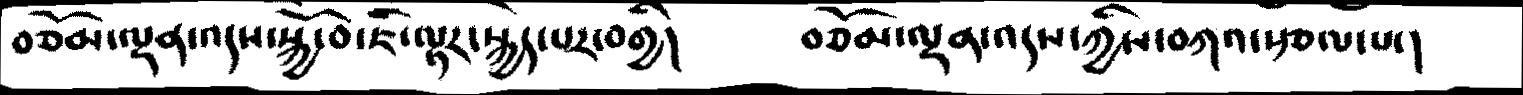བཅོམ་ལྡན་འདས་སྐྱོ་བ་ཇི་ལྟར་སྐྱེད་པར་བགྱི།      བཅོམ་ལྡན་འདས་ཀྱིས་བཀའ་རྩལ་པ་།
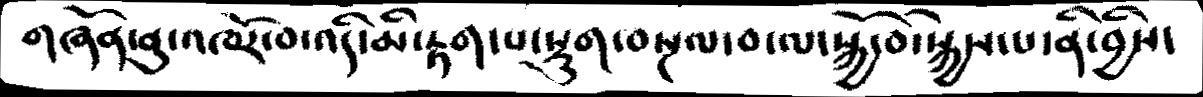གཞོན་ནུ་འཁོར་བ་འདི་མི་རྟག་པ་སྡུག་བསྔལ་བ་ལ་སྐྱོ་བ་སྐྱེས་པ་ནི་བྱིས་
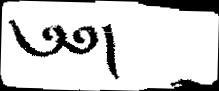༅༅།
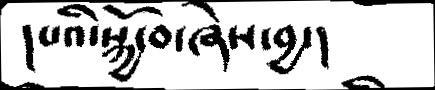།པའི་སྐྱོ་བ་ཞེས་བྱ་།
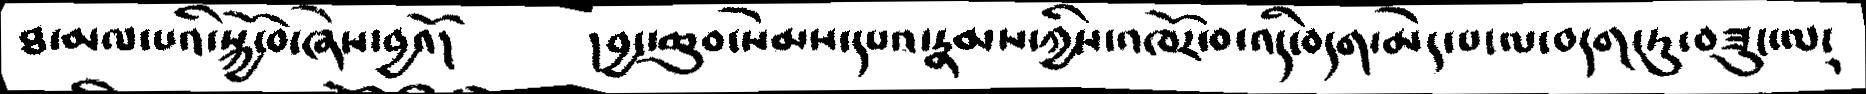ཐ་མལ་པའི་སྐྱོ་བ་ཞེས་བྱའོ།     །བྱང་ཆུབ་སེམས་དཔའ་རྣམས་ཀྱིས་འཁོར་བ་འདི་བདག་མེད་པ་ལ་བདག་ཏུ་བཟུང་ལ༴
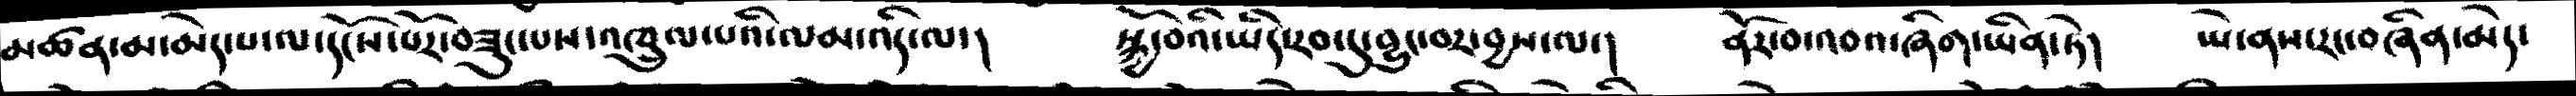མཚན་མ་མེད་པ་ལ་དངོས་པོར་བཟུང་པས་འཁྲུལ་པའི་ལམ་འདི་ལ་།   སྐྱོ་བའི་ཡིད་རབ་དུ་བྱུང་བར་བྱས་ལ་།       ནོར་བ་འབའ་ཞིག་ཡིན་ཏེ།    ཡེ་ནས་རང་བཞིན་མེད་
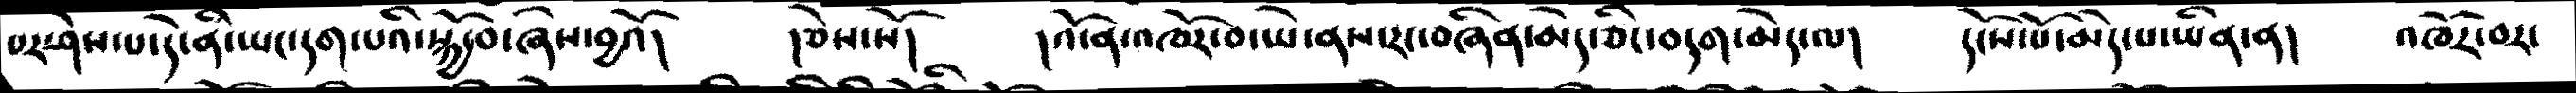པར་ཤེས་པ་དེ་ནི་ཡང་དག་པའི་སྐྱོ་བ་ཞེས་བྱའོ།    །ཅེས་སོ།    །འོ་ན་འཁོར་བ་ཡེ་ནས་རང་བཞིན་མེད་ཅིང་བདག་མེད་ལ།   དངོས་པོ་མེད་པ་ཡིན་ན།     འཁོར་བར་
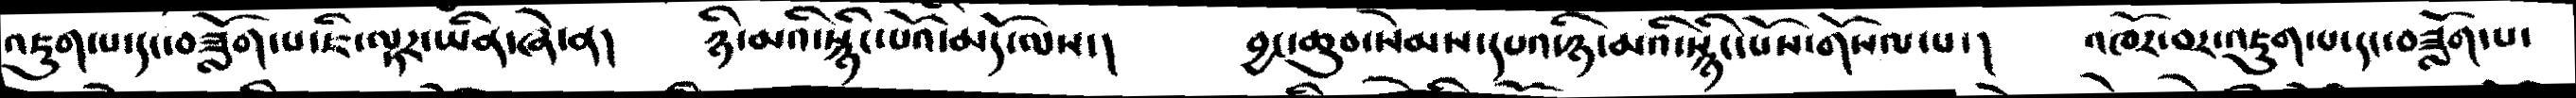འཇུག་པ་དང་བཟློག་པ་ཇི་ལྟར་ཡིན་ཞེ་ན།     ཉི་མའི་སྙིང་པའོི་མདོ་ལས་།   བྱང་ཆུབ་སེམས་དཔའ་ཉི་མའི་སྙིང་པོས་གསོལ་པ་།    འཁོར་བར་འཇུག་པ་དང་བཟློག་པ་
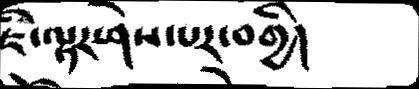ཇི་ལྟར་ཤེས་པར་བགྱི།
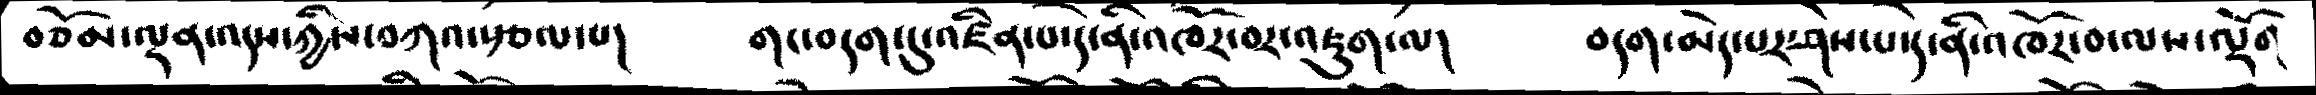བཅོམ་ལྡན་འདས་ཀྱིས་བཀའ་རྩལ་པ།      གང་བདག་དུ་འཛིན་པ་དེ་ནི་འཁོར་བར་འཇུག་ལ།    བདག་མེད་པར་ཤེས་པ་དེ་ནི་འཁོར་བ་ལས་ལྡོག
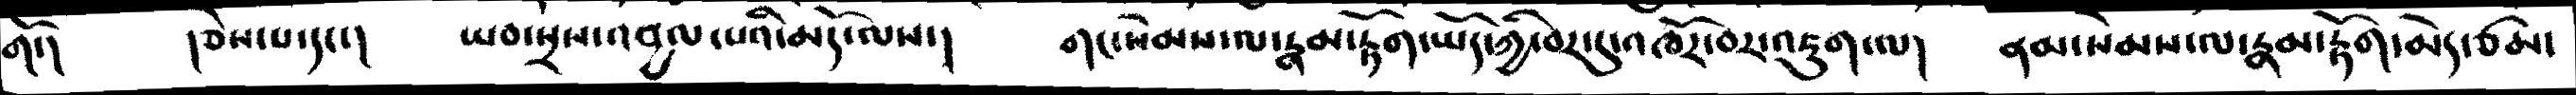གོ་།   །ཅེས་པ་དང་།    ཡབ་སྲས་འབྱལ་པའི་མདོ་ལས་།    གང་སེམས་ལ་རྣམ་རྟོག་ཡོད་མེད་ཀྱི་བར་དུ་འཁོར་བར་འཇུག་ལ།   ནམ་སེམས་ལ་རྣམ་རྟོག་མེད་ཙམ་
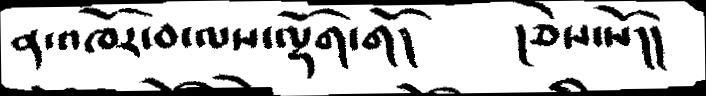ན་འཁོར་བ་ལས་ལྡོག་གོ།      །ཅེས་སོ།།
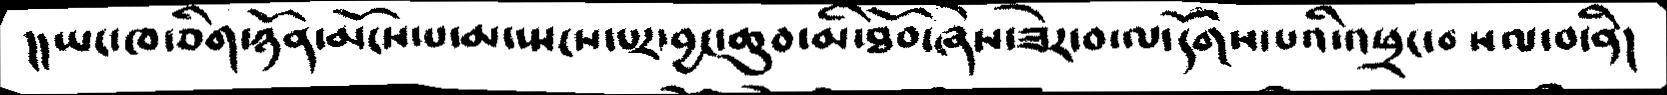།།ཡང་ཁ་ཅིག་ཉོན་མོངས་པ་མ་སྤངས་པར་བྱང་ཆུབ་མི་ཐོབ་ཞེས་ཟེར་བ་ལ་དོགས་པའི་འཕྲང་བསལ་བ་ནི།
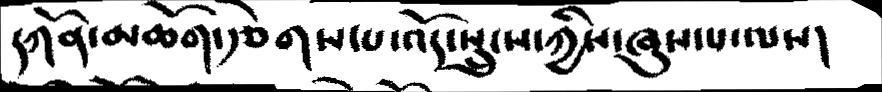དཀོན་མཆོག་རྩེགས་པ་འོད་སྲུངས་ཀྱིས་ཞུས་པ་ལས།
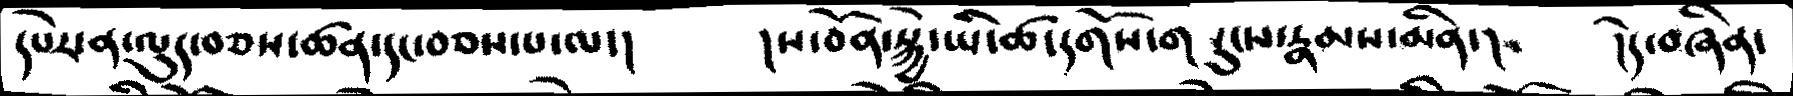དཔེར་ན་ལུད་བཅས་ཚན་དང་བཅས་པ་ལ་།     །ས་བོན་སྐྱེ་ཡི་ཚ་དགོས་གསུངས་རྣམས་མིན་།     །དེ་བཞིན་
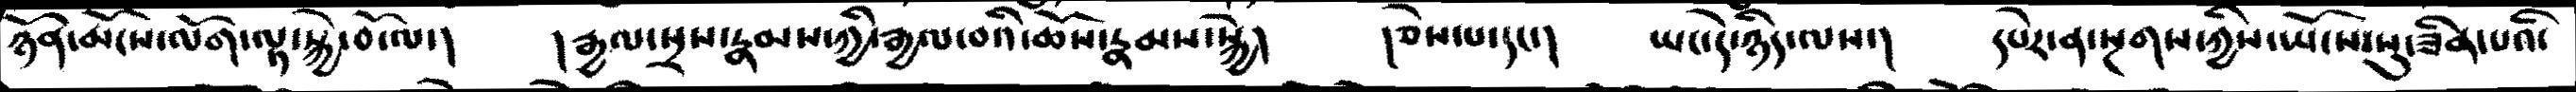ཉོན་མོངས་ལོག་ལྟ་སྐྱེ་བོ་ལ་།    །རྒྱལ་སྲས་རྣམས་ཀྱི་རྒྱ་བའི་ཆོས་རྣམས་སྐྱེ།     །ཅེས་པ་དང་།    ཡང་དེ་ཉིད་ལས་།    དཔེར་ན་སྔགས་ཀྱིས་ཡོངས་སུ་ཟིན་པའི་
